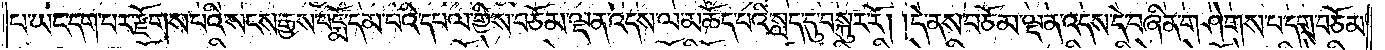པ་ཡང་དག་པར་རྫོགས་པའི་སངས་རྒྱས་པདྨོ་དམ་པའི་དཔལ་གྱིས་བཅོམ་ལྡན་འདས་ལ་མཆོད་པའི་སླད་དུ་བསྐུར་རོ། །དེ་ནས་བཅོམ་ལྡན་འདས་དེ་བཞིན་གཤེགས་པ་དགྲ་བཅོམ་
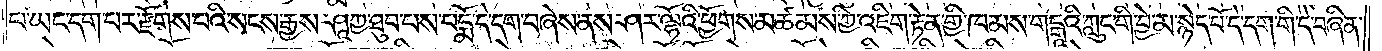པ་ཡང་དག་པར་རྫོགས་པའི་སངས་རྒྱས་ཤཱཀྱ་ཐུབ་པས་པདྨོ་དེ་དག་བཞེས་ནས་ཤར་ལྷོའི་ཕྱོགས་མཚམས་ཀྱི་འཇིག་རྟེན་གྱི་ཁམས་གངྒཱའི་ཀླུང་གི་བྱེ་མ་སྙེད་པོ་དེ་དག་གི་དེ་བཞིན་
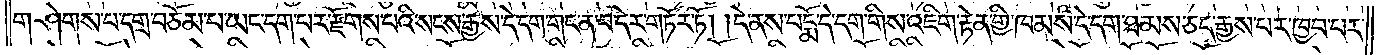གཤེགས་པ་དགྲ་བཅོམ་པ་ཡང་དག་པར་རྫོགས་པའི་སངས་རྒྱས་དེ་དག་གང་ན་བ་དེར་གཏོར་ཏོ། །དེ་ནས་པདྨོ་དེ་དག་གིས་འཇིག་རྟེན་གྱི་ཁམས་དེ་དག་ཐམས་ཅད་རྒྱས་པར་ཁྱབ་པར་
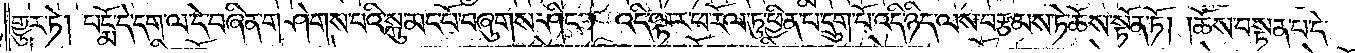གྱུར་ཏེ། པདྨོ་དེ་དག་ལ་དེ་བཞིན་གཤེགས་པའི་སྐུ་མང་པོ་བཞུགས་ཤིང༌། འདི་ལྟར་ཕ་རོལ་ཏུ་ཕྱིན་པ་དྲུག་པོ་འདི་ཉིད་ལས་བརྩམས་ཏེ་ཆོས་སྟོན་ཏོ། །ཆོས་བསྟན་པ་དེ་
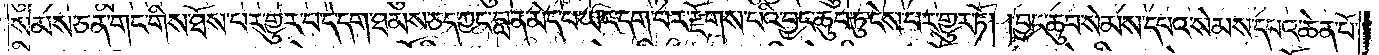སེམས་ཅན་གང་གིས་ཐོས་པར་གྱུར་པ་དེ་དག་ཐམས་ཅད་ཀྱང་བླ་ན་མེད་པ་ཡང་དག་པར་རྫོགས་པའི་བྱང་ཆུབ་ཏུ་ངེས་པར་གྱུར་ཏོ། །བྱང་ཆུབ་སེམས་དཔའ་སེམས་དཔའ་ཆེན་པོ་
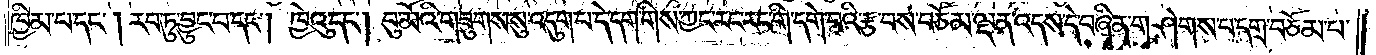ཁྱིམ་པ་དང༌། རབ་ཏུ་བྱུང་བ་དང༌། ཁྱེའུ་དང༌། བུ་མོའི་གཟུགས་སུ་འདུག་པ་དེ་དག་གིས་ཀྱང་རང་རང་གི་དགེ་བའི་རྩ་བས་བཅོམ་ལྡན་འདས་དེ་བཞིན་གཤེགས་པ་དགྲ་བཅོམ་པ་
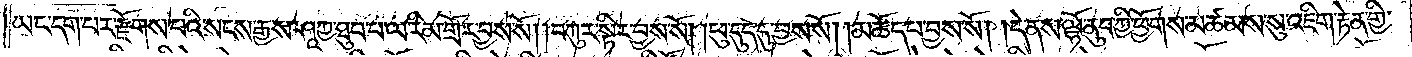ཡང་དག་པར་རྫོགས་པའི་སངས་རྒྱས་ཤཱཀྱ་ཐུབ་པ་ལ་རིམ་གྲོར་བྱས་སོ། །བཀུར་སྟིར་བྱས་སོ། །ཕུ་དུད་དུ་བྱས་སོ། །མཆོད་པ་བྱས་སོ། །དེ་ནས་ལྷོ་ནུབ་ཀྱི་ཕྱོགས་མཚམས་སུ་འཇིག་རྟེན་གྱི་
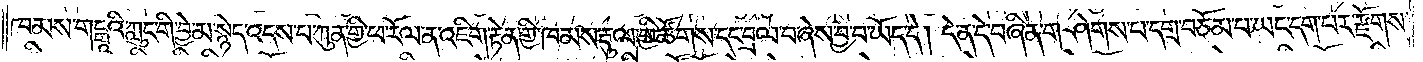ཁམས་གངྒཱའི་ཀླུང་གི་བྱེ་མ་སྙེད་འདས་པ་ཀུན་གྱི་ཕ་རོལ་ན་འཇིག་རྟེན་གྱི་ཁམས་རྡུལ་གྱི་ཚོགས་དང་བྲལ་བ་ཞེས་བྱ་བ་ཡོད་དེ། དེ་ན་དེ་བཞིན་གཤེགས་པ་དགྲ་བཅོམ་པ་ཡང་དག་པར་རྫོགས་
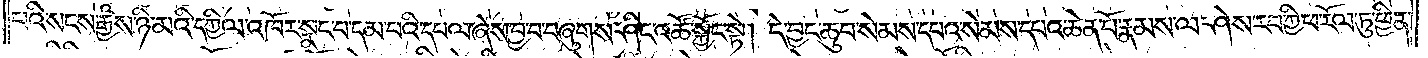པའི་སངས་རྒྱས་ཉི་མའི་དཀྱིལ་འཁོར་སྣང་བ་དམ་པའི་དཔལ་ཞེས་བྱ་བ་བཞུགས་ཤིང་འཚོ་སྐྱོང་སྟེ། དེ་བྱང་ཆུབ་སེམས་དཔའ་སེམས་དཔའ་ཆེན་པོ་རྣམས་ལ་ཤེས་རབ་ཀྱི་ཕ་རོལ་ཏུ་ཕྱིན་
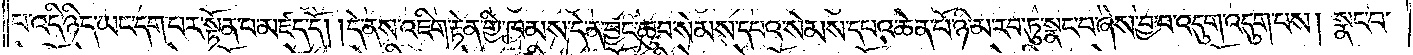པ་འདི་ཉིད་ཡང་དག་པར་སྟོན་པ་མཛད་དོ། །དེ་ནས་འཇིག་རྟེན་གྱི་ཁམས་དེ་ན་བྱང་ཆུབ་སེམས་དཔའ་སེམས་དཔའ་ཆེན་པོ་ཉི་མ་རབ་ཏུ་སྣང་བ་ཞེས་བྱ་བ་འདུག་འདུག་པས། སྣང་བ་
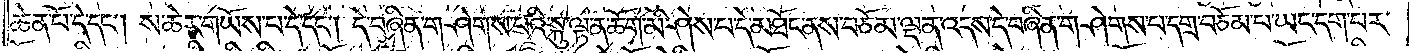ཆེན་པོ་དེ་དང༌། ས་ཆེར་གཡོས་པ་དེ་དང༌། དེ་བཞིན་གཤེགས་པའི་སྐུ་ལྟ་ན་ཆོག་མི་ཤེས་པ་དེ་མཐོང་ནས་བཅོམ་ལྡན་འདས་དེ་བཞིན་གཤེགས་པ་དགྲ་བཅོམ་པ་ཡང་དག་པར་
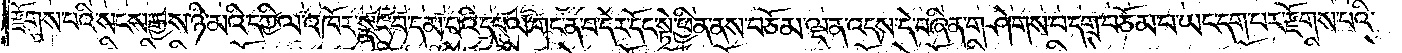རྫོགས་པའི་སངས་རྒྱས་ཉི་མའི་དཀྱིལ་འཁོར་སྣང་བ་དམ་པའི་དཔལ་གང་ན་བ་དེར་དོང་སྟེ་ཕྱིན་ནས་བཅོམ་ལྡན་འདས་དེ་བཞིན་གཤེགས་པ་དགྲ་བཅོམ་པ་ཡང་དག་པར་རྫོགས་པའི་
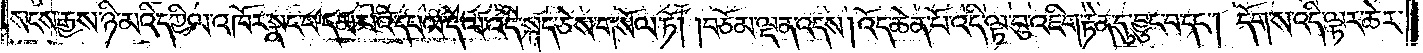སངས་རྒྱས་ཉི་མའི་དཀྱིལ་འཁོར་སྣང་བ་དམ་པའི་དཔལ་དེ་ལ་འདི་སྐད་ཅེས་གསོལ་ཏོ། །བཅོམ་ལྡན་འདས་།འོད་ཆེན་པོ་འདི་ལྟ་བུ་འཇིག་རྟེན་དུ་བྱུང་བ་དང༌། དོག་ས་འདི་ལྟར་ཆེར་
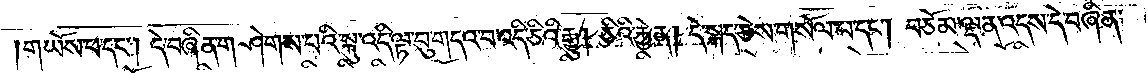གཡོས་པ་དང༌། དེ་བཞིན་གཤེགས་པའི་སྐུ་འདི་ལྟ་བུ་གདའ་བ་འདི་ཅིའི་རྒྱུ། ཅིའི་རྐྱེན། དེ་སྐད་ཅེས་གསོལ་བ་དང༌། བཅོམ་ལྡན་འདས་དེ་བཞིན་
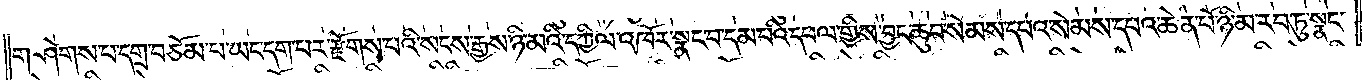གཤེགས་པ་དགྲ་བཅོམ་པ་ཡང་དག་པར་རྫོགས་པའི་སངས་རྒྱས་ཉི་མའི་དཀྱིལ་འཁོར་སྣང་བ་དམ་པའི་དཔལ་གྱིས་བྱང་ཆུབ་སེམས་དཔའ་སེམས་དཔའ་ཆེན་པོ་ཉི་མ་རབ་ཏུ་སྣང་
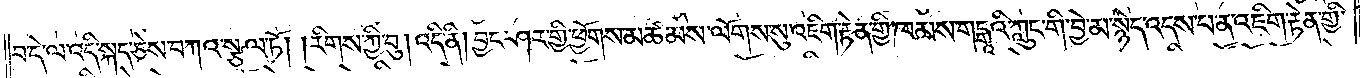བ་དེ་ལ་འདི་སྐད་ཅེས་བཀའ་སྩལ་ཏོ། །རིགས་ཀྱི་བུ། འདི་ནི། བྱང་ཤར་གྱི་ཕྱོགས་མཚམས་ལོགས་སུ་འཇིག་རྟེན་གྱི་ཁམས་གངྒཱའི་ཀླུང་གི་བྱེ་མ་སྙེད་འདས་པ་ན་འཇིག་རྟེན་གྱི་
